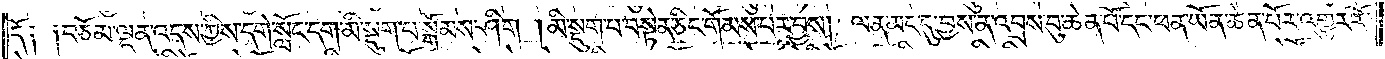དོ༑ ༑བཅོམ་ལྡན་འདས་ཀྱིས་དགེ་སློང་དག་མི་སྡུག་བ་སྒོམས་ཤིག །མི་སྡུག་པ་བསྟེན་ཅིང་གོམས་པར་བྱས། ལན་མང་དུ་བྱས་ན་འབྲས་བུ་ཆེན་པོ་དང་ཕན་ཡོན་ཆེན་པོར་འགྱུར་རོ་
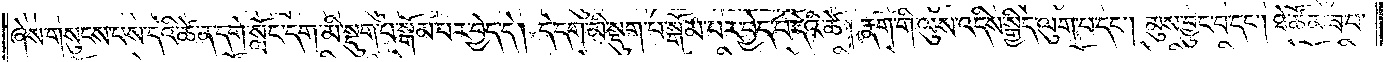ཞེས་གསུངས་པས་དེའི་ཚེ་ན་དགེ་སློང་དག་མི་སྡུག་པ་སྒོམ་པར་བྱེད་དེ། དེ་དག་མི་སྡུག་པ་སྒོམ་པར་བྱེད་པ་དེའི་ཚེ། རྣག་གི་ལུས་འདིས་སྒྱིད་ལུག་པ་དང༌། མུས་བྱུང་བ་དང༌། ཐེ་ཚོམ་ཟ་བ་
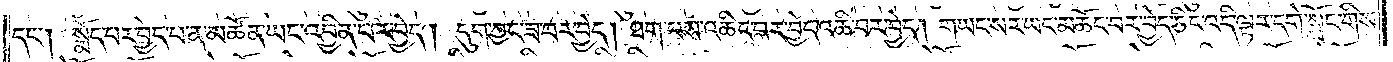དང༌། སྨོད་པར་བྱེད་པ་ན་མཚོན་ཡང་འབྱིན་པར་བྱེད། དུག་ཀྱང་ཟ་བར་བྱེད། ཐག་པས་འཆིང་བར་བྱེད་འཆི་བར་བྱེད། གཡང་སར་ཡང་མཆོང་བར་བྱེད་ཅིང་འདི་ལྟར་དགེ་སློང་གིས་
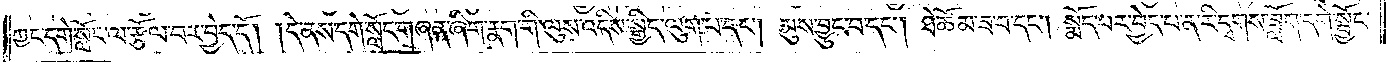ཀྱང་དགེ་སློང་ལ་རྩོལ་བར་བྱེད་དོ། །དེ་ནས་དགེ་སློང་གཞན་ཞིག་རྣག་གི་ལུས་འདིས་སྒྱིད་ལུག་པ་དང༌། མུས་བྱུང་བ་དང༌། ཐེ་ཚོམ་ཟ་བ་དང༌། སྨོད་པར་བྱེད་པ་ན་རི་དྭགས་ཟློག་དགེ་སྦྱོང་
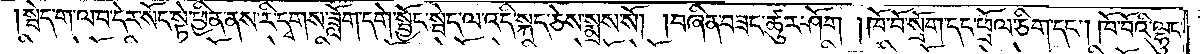སྦེད་ག་ལ་བ་དེར་སོང་སྟེ་ཕྱིན་ནས་རི་དྭགས་ཟློག་དགེ་སྦྱོང་སྦེད་ལ་འདི་སྐད་ཅེས་སྨྲས་སོ། །བཞིན་བཟང་ཚུར་ཤོག །ཁོ་བོ་སྲོག་དང་ཕྲོལ་ཅིག་དང༌། ཁོ་བོའི་ལྷུང་
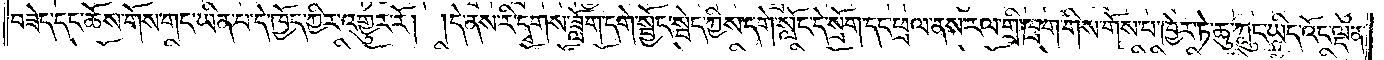བཟེད་དང་ཆོས་གོས་གང་ཡིན་པ་དེ་ཁྱོད་ཀྱིར་འགྱུར་རོ། །དེ་ནས་རི་དྭགས་ཟློག་དགེ་སྦྱོང་སྦེད་ཀྱིས་དགེ་སློང་དེ་སྲོག་དང་ཕྲལ་ནས་རལ་གྲི་ཁྲག་གིས་གོས་པ་ཁྱེར་ཏེ་ཆུ་ཀླུང་ཡིད་འོང་ལྡན་
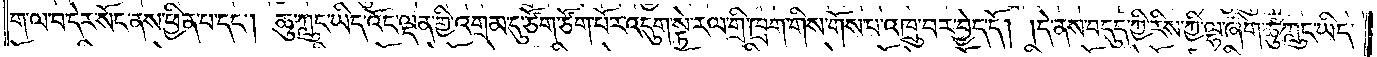ག་ལ་བ་དེར་སོང་ནས་ཕྱིན་པ་དང༌། ཆུ་ཀླུང་ཡིད་འོང་ལྡན་གྱི་འགྲམ་དུ་ཙོག་ཙོག་པོར་འདུག་སྟེ་རལ་གྲི་ཁྲག་གིས་གོས་པ་འཁྲུ་བར་བྱེད་དོ། །དེ་ནས་བདུད་ཀྱི་རིས་ཀྱི་ལྷ་ཞིག་ཆུ་ཀླུང་ཡིད་
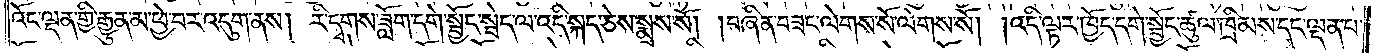འོང་ལྡན་གྱི་རྒྱུན་མ་ཕྱེ་བར་འདུག་ནས། རི་དྭགས་ཟློག་དགེ་སྦྱོང་སྦེད་ལ་འདི་སྐད་ཅེས་སྨྲས་སོ། །བཞིན་བཟང་ལེགས་སོ་ལེགས་སོ། །འདི་ལྟར་ཁྱོད་དགེ་སྦྱོང་ཚུལ་ཁྲིམས་དང་ལྡན་པ་
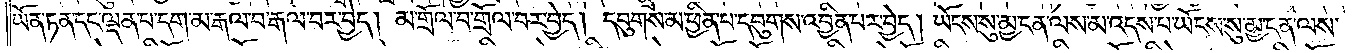ཡོན་ཏན་དང་ལྡན་པ་དག་མ་རྒལ་བ་རྒལ་བར་བྱེད། མ་གྲོལ་བ་གྲོལ་བར་བྱེད། དབུགས་མ་ཕྱིན་པ་དབུགས་འབྱིན་པར་བྱེད། ཡོངས་སུ་མྱ་ངན་ལས་མ་འདས་པ་ཡོངས་སུ་མྱ་ངན་ལས་
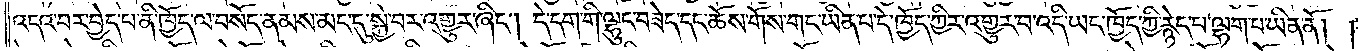འདའ་བར་བྱེད་པ་ནི་ཁྱོད་ལ་བསོད་ནམས་མང་དུ་སྐྱེ་བར་འགྱུར་ཞིང༌། དེ་དག་གི་ལྷུང་བཟེད་དང་ཆོས་གོས་གང་ཡིན་པ་དེ་ཁྱོད་ཀྱིར་འགྱུར་བ་འདི་ཡང་ཁྱོད་ཀྱི་རྙེད་པ་ལྷག་པ་ཡིན་ནོ། །
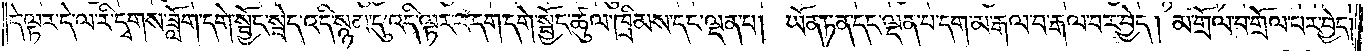དེ་ལྟར་དེ་ལ་རི་དྭགས་ཟློག་དགེ་སྦྱོང་སྦེད་འདི་སྙམ་དུ་འདི་ལྟར་བདག་དགེ་སྦྱོང་ཚུལ་ཁྲིམས་དང་ལྡན་པ། ཡོན་ཏན་དང་ལྡན་པ་དག་མ་རྒལ་བ་རྒལ་བར་བྱེད། མ་གྲོལ་བ་གྲོལ་པར་བྱེད།
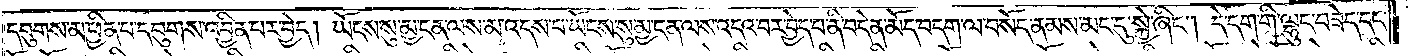དབུགས་མ་ཕྱིན་པ་དབུགས་འབྱིན་པར་བྱེད། ཡོངས་སུ་མྱ་ངན་ལས་མ་འདས་པ་ཡོངས་སུ་མྱ་ངན་ལས་འདའ་བར་བྱེད་པ་ནི་བདེན་མོད་བདག་ལ་བསོད་ནམས་མང་དུ་སྐྱེ་ཞིང༌། དེ་དག་གི་ལྷུང་བཟེད་དང་
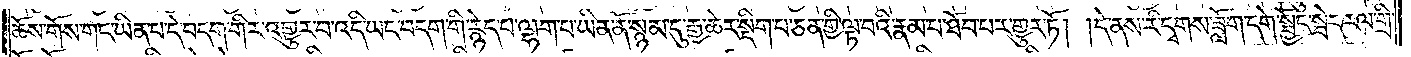ཆོས་གོས་གང་ཡིན་པ་དེ་བདག་གིར་འགྱུར་བ་འདི་ཡང་བདག་གི་རྙེད་པ་ལྷག་པ་ཡིན་ནོ་སྙམ་དུ་རྒྱ་ཆེར་སྡིག་པ་ཅན་གྱི་ལྟ་བའི་རྣམ་པ་ཐོབ་པར་གྱུར་ཏོ། །དེ་ནས་རི་དྭགས་ཟློག་དགེ་སྦྱོང་སྦེད་རལ་གྲི་
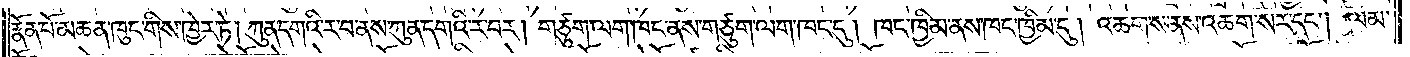རྣོན་པོ་མཆན་ཁུང་གིས་ཁྱེར་ཏེ། ཀུན་དགའི་ར་བ་ནས་ཀུན་དགའི་ར་བར། གཙུག་ལག་ཁང་ནས་གཙུག་ལག་ཁང་དུ། ཁང་ཁྱིམ་ནས་ཁང་ཁྱིམ་དུ། འཆག་ས་ནས་འཆག་སར་དང༌། ལམ་
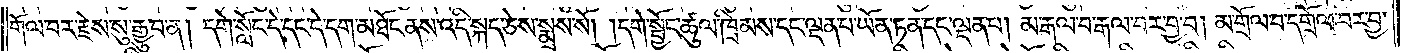གོལ་བར་རྗེས་སུ་རྒྱུ་བ་ན། དགེ་སློང་དེ་དང་དེ་དག་མཐོང་ནས་འདི་སྐད་ཅེས་སྨྲས་སོ། །དགེ་སྦྱོང་ཚུལ་ཁྲིམས་དང་ལྡན་པ་ཡོན་ཏན་དང་ལྡན་པ། མ་རྒལ་བ་རྒལ་བར་བྱ་བ། མ་གྲོལ་བ་དགྲོལ་བར་བྱ་
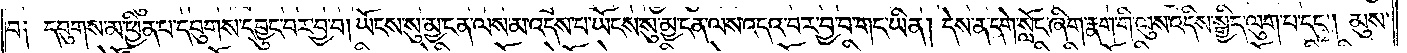བ༑ དབུགས་མ་ཕྱིན་པ་དབུགས་དབྱུང་བར་བྱ་བ། ཡོངས་སུ་མྱ་ངན་ལས་མ་འདས་པ་ཡོངས་སུ་མྱ་ངན་ལས་འདའ་བར་བྱ་བ་གང་ཡིན། དེས་ན་དགེ་སློང་ཞིག་རྣག་གི་ལུས་འདིས་སྒྱིད་ལུག་པ་དང༌། མུས་
